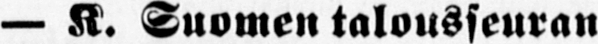— K. Suomen talousseuran
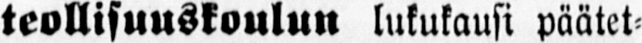teollisuuskoulun lukukausi päätet-
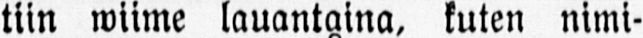tiin wiime lauantaina, kuten nimi-
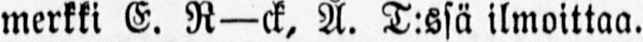merkki E. R—ck, Å. T:ssä ilmoittaa.
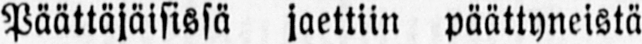Päättäjäisissä jaettiin päättyneistä
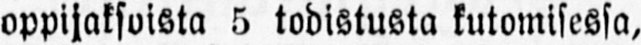oppijaksoista 5 todistusta kutomisessa,
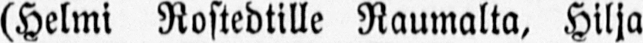(Helmi Rostedtille Raumalta, Hilja
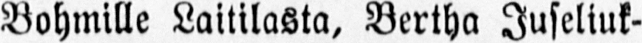Bohmille Laitilasta, Bertha Juseliuk-
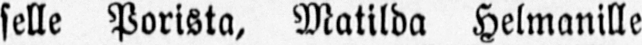selle Porista, Matilda Helmanille
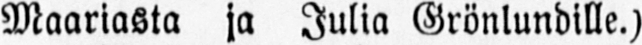Maariasta ja Julia Grönlundille.)
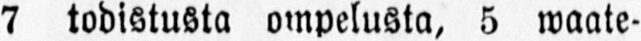7 todistusta ompelusta, 5 waate-
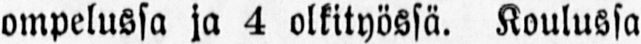ompelussa ja 4 olkityössä. Koulussa
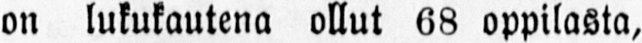on lukukautena ollut 68 oppilasta,
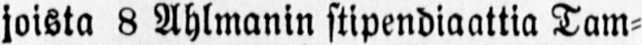joista 8 Ahlmanin stipendiaattia Tam-
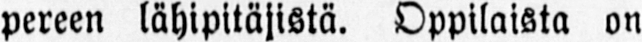pereen lähipitäjistä. Oppilaista on
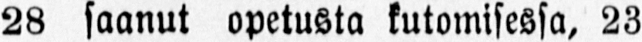28 saanut opetusta kutomisessa, 23
